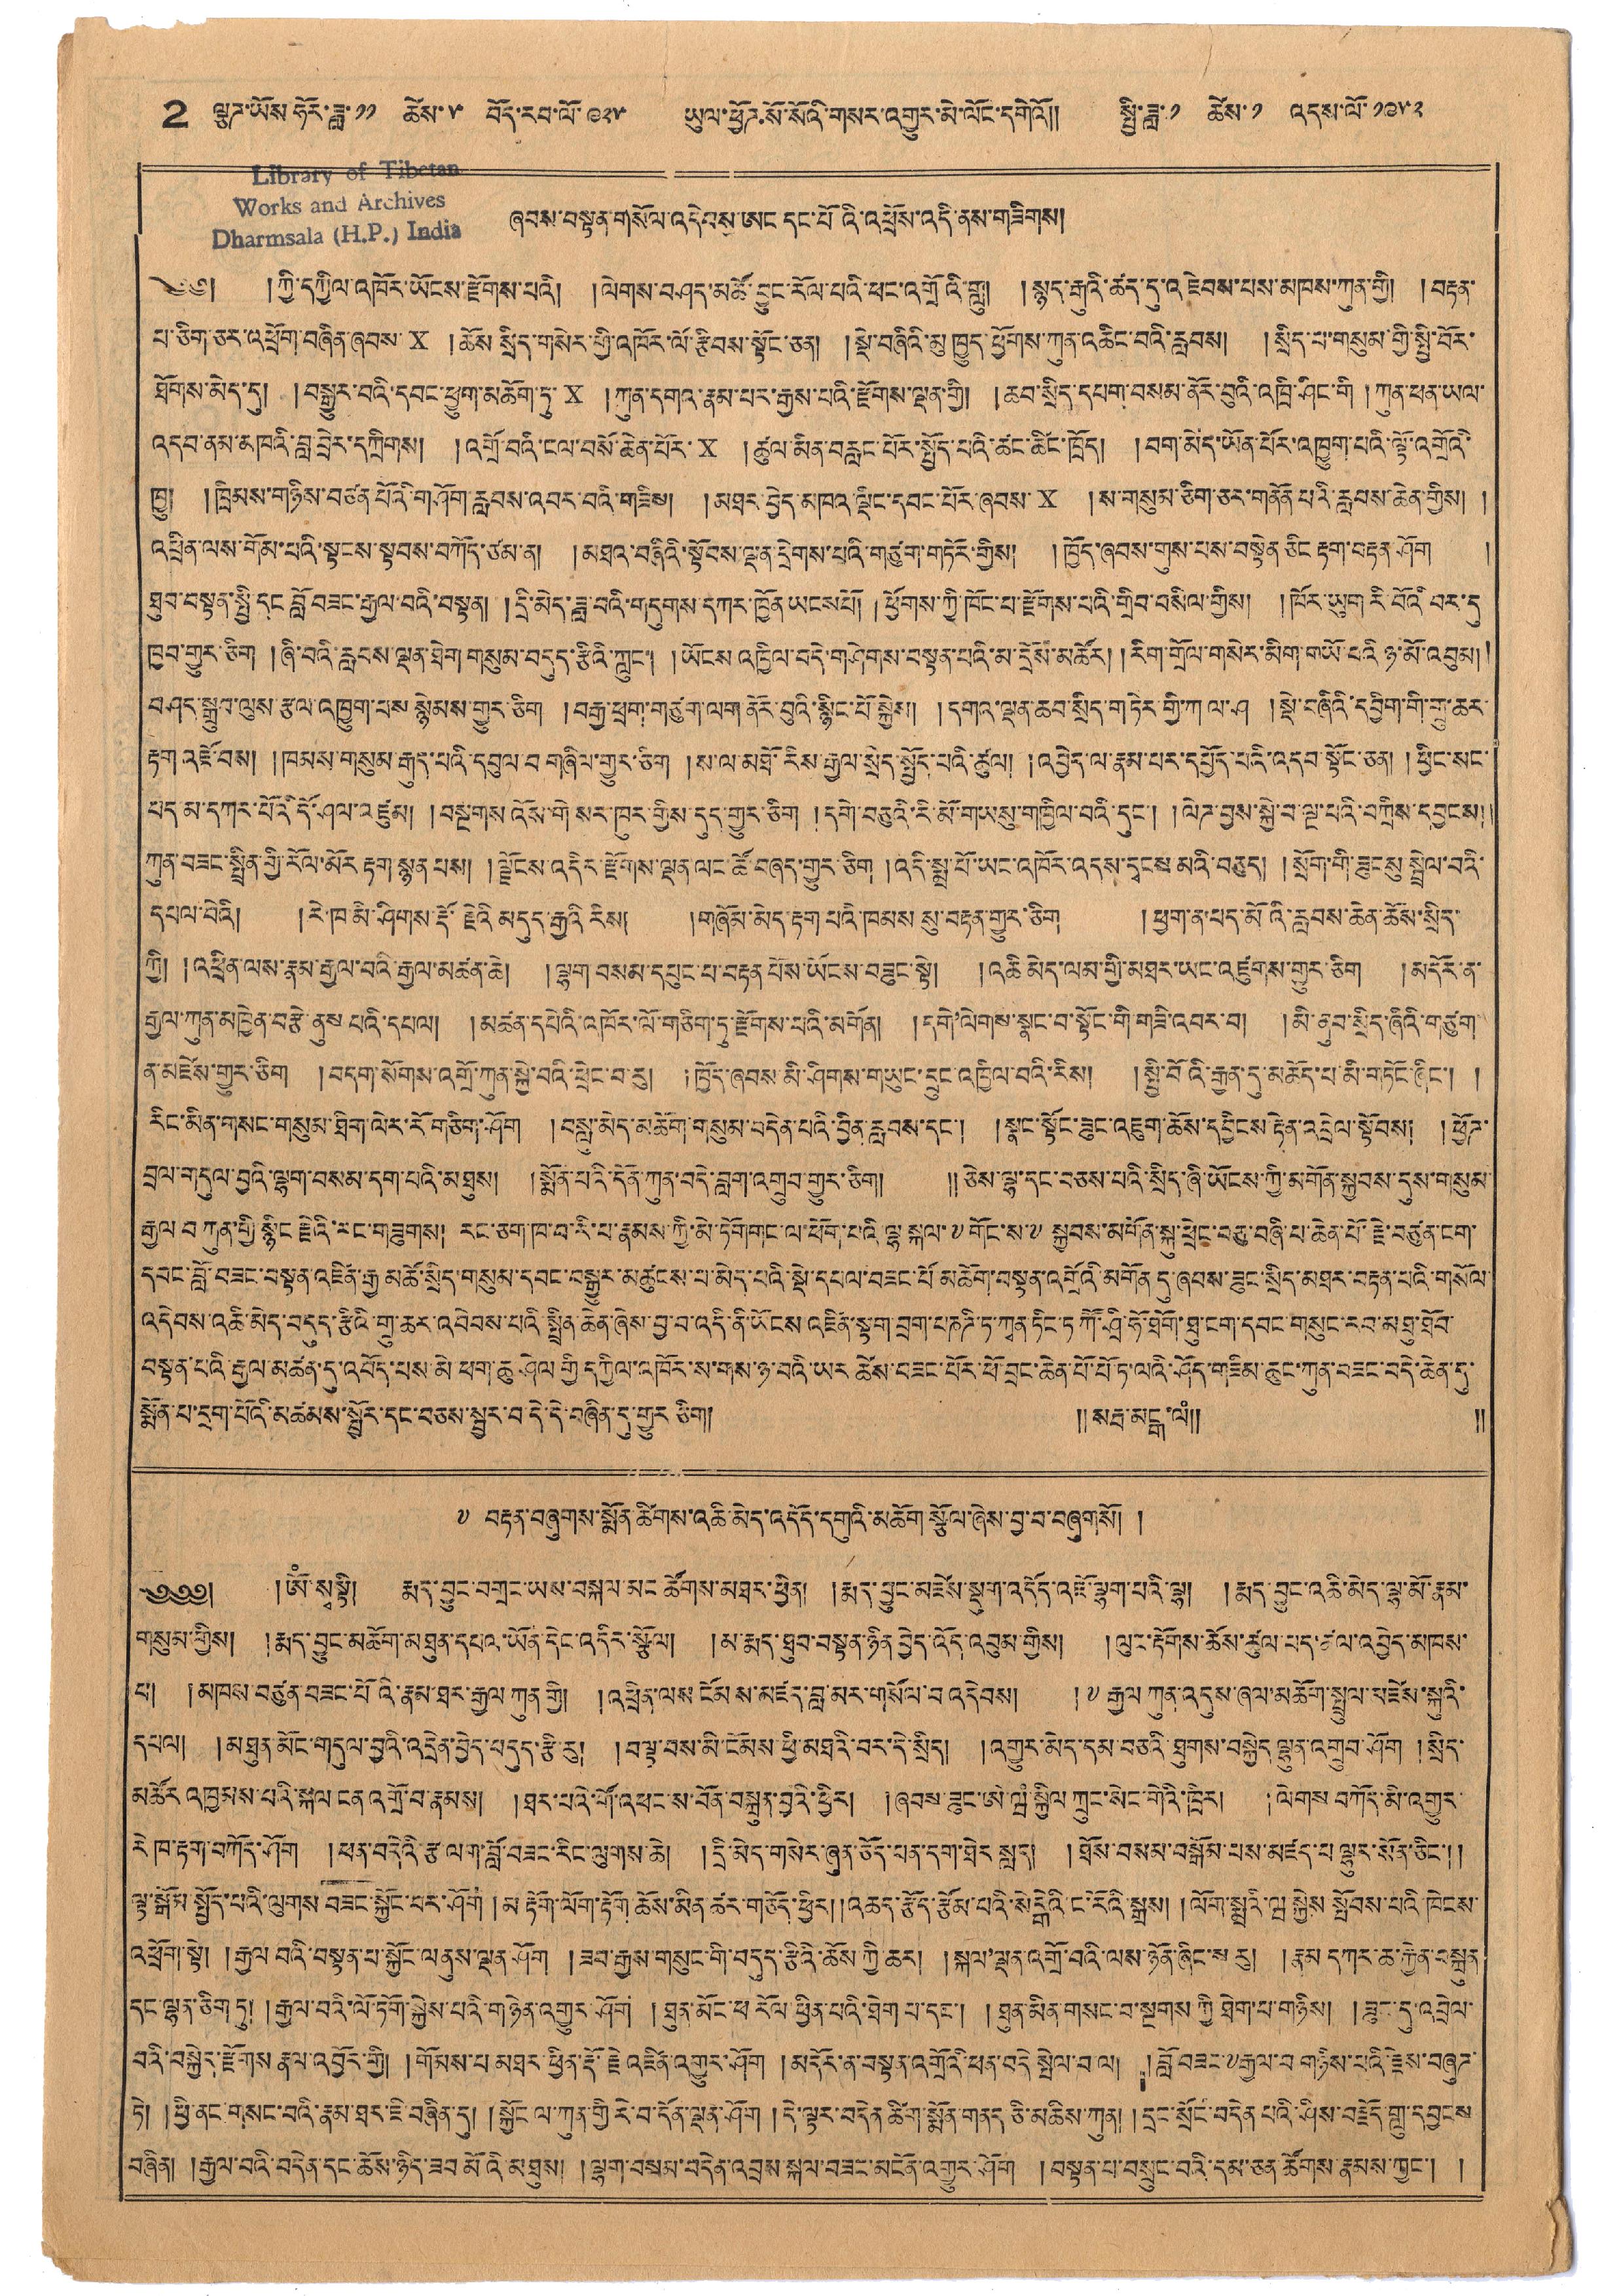2 ལྕཊ་ཡོས ཧོར་ཟླ་ ༡༡ ཚེས་ ༥ བོད་རབ་ལོ་ ༩༢༥ ཡུལ་ཕྱོཊ་སོ་སོའི་གསར་འགྱུར་མེ་ལོང་དགེའོ།། སྤྱི་ཟླ་ ༡ ཚེས་ ༡ འདས་ལོ་ ༡༩༥༢
ཞབས་བསྟན་གསོལ་འདེབས་ཨང་དང་པོ འི་འཕྲོས་འདི་ནས་གཟིགས།
༄༅། །ཀྱི་དཀྱིལ་འཁོར་ཡོངས་རྫོགས་པའི། །ལེགས་བཤད་མཚོ་བྱུང་རོལ་པའི་ཕང་འགྲོའི་གླུ། །སྙད་རྒུའི་ཚད་དུ་འཇེབས་པས་མཁས་ཀུན་གྱི། །བརྟན་
པ་ཅིག་ཅར་འཕྲོག་བཞིན་ཞབས་ x །ཆོས་སྲིད་གསེར་གྱི་འཁོར་ལོ་རྩིབས་སྟོང་ཅན། །སྡེ་བཞིའི་མུ ཁྱུད་ཕྱོགས་ཀུན་འཆིང་བའི་རླབས། །སྲིད་པ་གསུམ་གྱི་སྤྱི་བོར་
ཐོགས་མེད་དུ། །བསྒྱུར་བའི་དབང་ཕྱུག་མཆོག་ཏུ་ x །ཀུན་དགའ་རྣམ་པར་རྒྱས་པའི་རྫོགས་ལྡན་གྱི། །ཆབ་སྲིད་དཔག་བསམ་ནོར་བུའི་འཁྲི་ཤིང་གི །ཀུན་ཕན་ཡལ་
འདབ་ནམ་མཁའི་བླ་བྲེར་དཀྲིགས། །འགྲོ་བའི་ངལ་བསོ་ཆེན་པོར་ x །ཚུལ་མིན་བརླང་པོར་སྤྱོད་པའི་ཚང་ཚིང་ཁྲོད། །བག་མེད་ཡོན་པོར་འཁྱུག་པའི་ལྟོ་འགྲོའི་
ཁྱུ། །ཁྲིམས་གཉིས་བཙན པོའི་གཤོག་རླབས་འབར་བའི་གཟིས། །མཐར་བྱེད་མཁའ་ལྡིང་དབང་པོར་ཞབས་ x །ས་གསུམ་ཅིག་ཅར་གནོན་བའི་རླབས་ཆེན་གྱིས། །
འཕྲིན་ལས་གོམ་པའི་སྟངས་སྟབས་བཀོད་ཙམ་ན། །མཐའ་བཞིའི་སྟོབས་ལྡན་དྲེགས་པའི་གཙུག་གཏོར་གྱིས། །ཁྱོད་ཞབས་གུས་པས་བསྟེན་ཅིང་རྟག་བརྟབ་ཤོག །
ཐུབ་བསྟན་སྤྱི་དང བློ་བཟང་རྒྱལ་བའི་བསྟན། །དྲི་མེད་ཟླ་བའི་གདུགས་དཀར་ཁྱོན་ཡངསཔོ། །ཕྱོགས་ཀྱི་ཁོང་པ་རྫོགས་པའི་གྲིབ་བསིལ་གྱིས། །ཁོར་ཡུག་རི་བོའི བར་དུ་
ཁྱབ་གྱུར་ཅིག །ཞི་བའི་རླབས་ལྡན་ཐེག གསུམ་བདུད་རྩིའི་ཀླུང་། །ཡོངས་འཁྱིལ་བདེ་གཤེགས་བསྟན་པའི་མ་དྲོས་མཚོར། །རིག་གྲོལ་གསེར་མིག་གཡོ་བའི་ཉ་མོ་འབུམ། །
བཤད་སྒྲུབ་ལུས་རྩལ་འཁྱུག་པས་སྙེགས་གྱུར་ཅིག །བརྒྱ་ཕྲག་གཙུག་ལག་ནོར་བུའི་སྙིང་པོ སྐྱེས། དགའ་ལྡན་ཆབ་སྲིད་གཏེར་གྱི་ཀ་ལ་ཤ །སྡེ་བཞིའི་དབྱིག་གི་གྱུ་ཆར་
རྟག་འཇོ་བས། །ཁམས་གསུམ་རྒུད་པའི་དབུལ་བ་གཞིལ་གྱུར་ཅིག །ས་ལ་མཐོ་རིས་རྒྱས་སྲེད་སྤྱོད་པའི་ཚུལ། །འབྱེད་ལ་རྣམ་པར་དཔྱོད་པའི་འདབ་སྟོང་ཅན། །ཕྱིང་སང་
པད་མ་དཀར་པོའི་དོ་ཤལ་འཛུམ། །བསྔགས་འོས་གེ་སར་ཁུར་གྱིས་དུད་གྱུར་ཅིག །དགེ་བཅུའི་རི་མོ་གཡསུ་གཁྱིལ་བའི་དུང་། །ལེཊ་བྱས་སྐྱེ་བ་ལྔ་པའི་བཀྲིས་དབྱངས།།
ཀུན་བཟང་སྤྲིན་གྱི་རོལ་མོར་རྟག་སྙན་པས། །ལྗོངས་འདིར་རྫོགས་ལྡན་ལང་ཚོ་བཞད་གྱུད་ཅིག །འདི་སྨྲ་པོ་ཡང་འཁོར་འདས་དྭངས མའི་བཅུད། །སྲོག་གི་ཟུངསུ སྦྲེལ་བའི་
དཔལ་བེའི། །རེ་ཁ་མི་ཤོགས་རྡོ་རྗེའི་མདུད་རྒྱའི་རིས། །གཞོམ་མེད་རྟག་པའི་ཁམས་སུ་བརྟན་གྱུར་ཅིག །ཕྱག་ན་པད་མོའི་རླབས་ཆེན་ཆོས་སྲིད་
ཀྱི། །འཕྲིན་ལས་རྣམ་རྒྱལ་བའི་རྒྱལ་མཚན་ཆེ། །ལྷག་བསམ་དཔུང་པ་བརྟན་པོས་ཡོངས་བཟུང་སྟེ། །འཆི་མེད་ལས་གྱི་མཐར་ཡང་འཛུགས་གྱུར་ཅིག །མདོར་ན་
རྒྱལ་ཀུན་མཁྱེན་བརྩེ་ནུས་པའི་དཔལ། །མཚན་དཔེའི་འཁོར་ལོ་གཅིག་ཏུ་རྫོགས་པའི་མགོན། །དགེ་ལེགས་སྣང་བ་སྟོང་གི་གཟི་འབར་བ། །མི་ནུས་སྲིད་ཞིའི་གཙུག
ན་མཛེས་གྱུར་ཅིག །བདག་སོགས་འགྲོ་ཀུན་བའི་ཕྲེང་བ་རུ། །ཁྱོད་ཞབས་མི་ཤིགས་གཡུང་དྲུང་འཁྱིལ་བའི་རིས། །སྤྱི་བོའི་རྒྱན་དུ་མཆོད་པ་མི་གཏོང་ཞིང་། །
རིང་མིན་གསང་གསུམ་ཐེག་ལེར་རོ་གཅིག་ཤོག །བསླུ་མེད་མཆོག་གསུམ་བདེན་པའི་བྱིན་རླབས་དང་། །སྣང་སྟོང་ཟུང་འཇུག་ཆོས་དབྱིངས་རྟེན་འདྲེལ་སྟོབས། །ཕྱོཊ་
བྲལ་གདུལ་བྱའི་ལྷག་བསམ་དག་པའི་མཐུས། །སྨོན་པའི་དོན་ཀུན་བདེ་བླག་འགྲུབ་གྱུར་ཅིག། །།ཅེས་ལྷ་དང་བཅས་པའི་སྲིད་ཞི་ཡོངས་ཀྱི་མགོན་སྐྱབས་དུས་གསུམ་
རྒྱལ་བ་ཀུན་གྱི་སྙིང་རྗེའི་རང་གཟུགས། །རང་ཅག་ཁ་བ་རི་པ་རྣམས་ཀྱི་མེ་ཏོགགང་ལ་ཕོག་པའི་ལྷ་སྐལ་༸གོང་ས་༸སྐྱབས་མགོན་སྐུ་ཕྲེང་བཅུ་བཞི་པ་ཆེན་པོ་ཇེ་བཙུན་ངག་
དབང་བློ་བཟང་བསྟན་འཛིན་རྒྱ་མཚོ་སྲིད་གསུམ་དབང་བསྒྱུར་མཚུངས་པ་མེད་པའི་སྡེ་དཔལ་བཟང་པོ་མཆོག་བསྟན་འགྲོའི་མགོན་དུ་ཞབས་ཟུང་སྲིད་མཐར་བརྟན་པའི་གསོལ
འདེབས་འཆི་མེད་བདུད་རྩིའི་གྲུ་ཆར་འབེབས་པའི་སྤྲིན་ཆེན་ཞེས་བྱ་བ་འདི་ནི་ཡོངས་འཛིན་སྟག་བྲག་པཎཌི་ཏ་ཀྭན་ཏིང་ཏ་ཀཽ་ཤྲི་ཧོ་ཐོག་ཐུ་ངག་དབང་གསུང་རབ་མཐུ་ཐོབ་
བསྟན་པའི་རྒྱལ་མཚན་དུ་འབོད་པས་མེ་ཕག་ཆུ་ཤེལ་གྱི་དཀྱིལ་འཁོར་ས་གས་ཉ་བའི་ཡར་ཚེས་བཟང་པོར་ཕོ་བྲང་ཆེན་པོ་པོ་ཏ་ལའི་ཤོད་གཟིམ་ཆུང་ཀུན་བཟང་བདེ་ཆེན་དུ་
སྨོན་པ་དྲག་པོའི་མཚམས་སྦྱོར་དང་བཅས་སྦྱར་བ་དེ་དེ་བཞིན་དུ་གྱུར་ཅིག། །།སརྦ་མངྒ་ལཾ།། །།
༸ བརྟན་བཞུགས་སྨོན་ཚིགས་འཆི་མེད་འདོད་དགུའི་མཆོག་སྩོལ་ཞེས་བྱ་བ་བཞུགསོ། །
༄༅༅། །ཨོཾསྭསྟི། རྨད་བྱུང་བགྲང་ཡས་བསྐལ་མང་ཚོགས་མཐར་ཕྱིན། །རྨད་བྱུང་མཛེས་སྡུག་འདོད་འཇོ་ལྷག་པའི་ལྟ། །རྨད་བྱུང་འཆི་མེད་ལྷ་མོ་རྣམ་
གསུམ་གྱིས། །རྨད་བྱུང་མཆོག་མཐུན་དཔའ་ཡོན་དེང་འདིར་སྩོལ། །མ་རྨད་ཐུབ་བསྟན་ཉིན་བྱེད་འོད་འབུམ་གྱིས། །ལུང་རྟོགས་ཆོས་ཚུལ་པད་ཚལ་འབྱེད་མཁས་
པ། མཁས་བཙུན་བཟང་པོའི་རྣམ་ཐར་རྒྱལ་ཀུན་གྱི། །འཕྲིལ་ལས་ངོམས་མཛད་བླ་མར་གསོལ་བ འདེབས། །༸རྒྱལ་ཀུན་འདུས་ཞལ་མཆོག་སྤྲུལ་མཛེས་སྐུའི་
དཔལ། །མཐུན་མོང་གདུལ་བྱའི་འདྲེན་བྱེད་བདུད་རྩི་རུ། །བལྟ་བས་མི་ངོམས་ཕྱི་མཐའི་བར་དེ་སྲིད། །འགྱུར་མེད་དམ་བཅའི་ཐུགས་བསྐྱེད་ལྷུན་འགྲུབ་ཤོག །སྲོད་
མཚོར་འཁྱམས་པའི་སྐལ་ངན་འགྲོ་བ་རྣམས། །ཐར་པའི་གོ་འཕང་ས་བོན་བསྐྲུན་བྱའི་ཕྱིར། །ཞབས་ཟུར་ཨེ་ཝཾ་སྐྱིལ་ཀྲུང་སེང་གེའི་ཁྲིར། །ལེགས་བཀོད་མི་འགྱུར་
རེ་ཁ་རྟག་བཀོད་ཤོག །ཕན་བདེའི་རྩ་ལག་བློ་བཟང་རིང་ལུགས་ཆེ། །དྲི་མེད་གསེར་ཞུན་ཅོད་པན་དག་ཐེར་སླད། །ཐོས་བསམ་བསྒོམ་པས་མཛད་པ ལྷུན་སོན་ཅིང་།།
ལྟ་སྒོས་སྤྱོད་པའི་ལུགས བཟང་སྐྱོང་བར་ཤོག །མ་རྟོག་ལོག་རྟོག་ཆོས་མིན་ཚར་གཅོད་ཕྱིར།།འཆད་རྩོད་རྩོམ་པའི་སེངྒེའི་ང་རོའི་སྒྲས། །ལོག་སྨྲའི་ཝ་སྐྱེས་སྤོབས་པའི ཁེངས་
འཕྲོག་སྟེ། །རྒྱལ་བའི་བསྟན་པ་སྐྱོང་ལནུས་ལྡན་ཤོག །ཟབ་རྒྱས་གསུང་གི་བདུད་རྩིའི་ཆིས་ཀྱི་ཆར། །སྐལ་ལྡན་འགྲོ་བའི་ལས་ཉོན་ཞིང་ས་རུ། །རྣམ་དཀར་ཆ་རྐྱེན་བསྐྲུན
དང་ལྷན་ཅིག་ཏུ། །རྒྱལ་བའི་ལོ་ཏོག་སྐྱེས་པའི་གཉེན་འགྱུར་ཤོག །ཐུན་མོང་ཕ་རོལ་ཕྱིན་པའི་ཐེག་པ་དང་། །ཐུན་མིན་གསང་བ་སྔགས ཀྱི་ཐེག་པ་གཉིས། །ཟུང་དུ་འབྲེལ་
བའི་བསྐྱེད་རྫོགས་རྣལ་འབྱོར་གྱི། །གོམས་པ་མཐར་ཕྱིན་རྡོ་རྗེ་འཛིན་འགྱུར་ཤོག །མདོར་ན་བསྟན་འགྲོའི་ཕན་བདེའི་སྤེལ་པ་ལ། །བློ་བཟང་༸རྒྱལ་བ་གཉིས་པའི་རྫས་བཞུཊ་
ཏེ། །ཕྱི་ནང་གསང་བའི་རྣམ་ཐར་ཇི་བཞིན་དུ། །སྐྱོང་ལ་ཀུན་གྱི་རེ་བ་དོན་ལྡན་ཤོག །དེ་ལྟར་བདེན་ཚིག་སྨོན་གནད ཅི་མཆིས་ཀུན། །དྲང་སྲོང་བདེན་པའི་ཤིས་བརྗོད་གླུ་དབྱངས
བཞིན། །རྒྱལ་བའི་བདེན་དང་ཆོས་ཉིད་ཟབ་མོའི་མཐུས། །ལྷག་བསམ་བདེན་འབྲས་སྐལ་བཟང་མངོན་འགྱུར་ཤོག །བསྟན་པ་སྲུང་བའི་དམ་ཅན་ཚོགས་རྣམས་ཀྱང་། །
